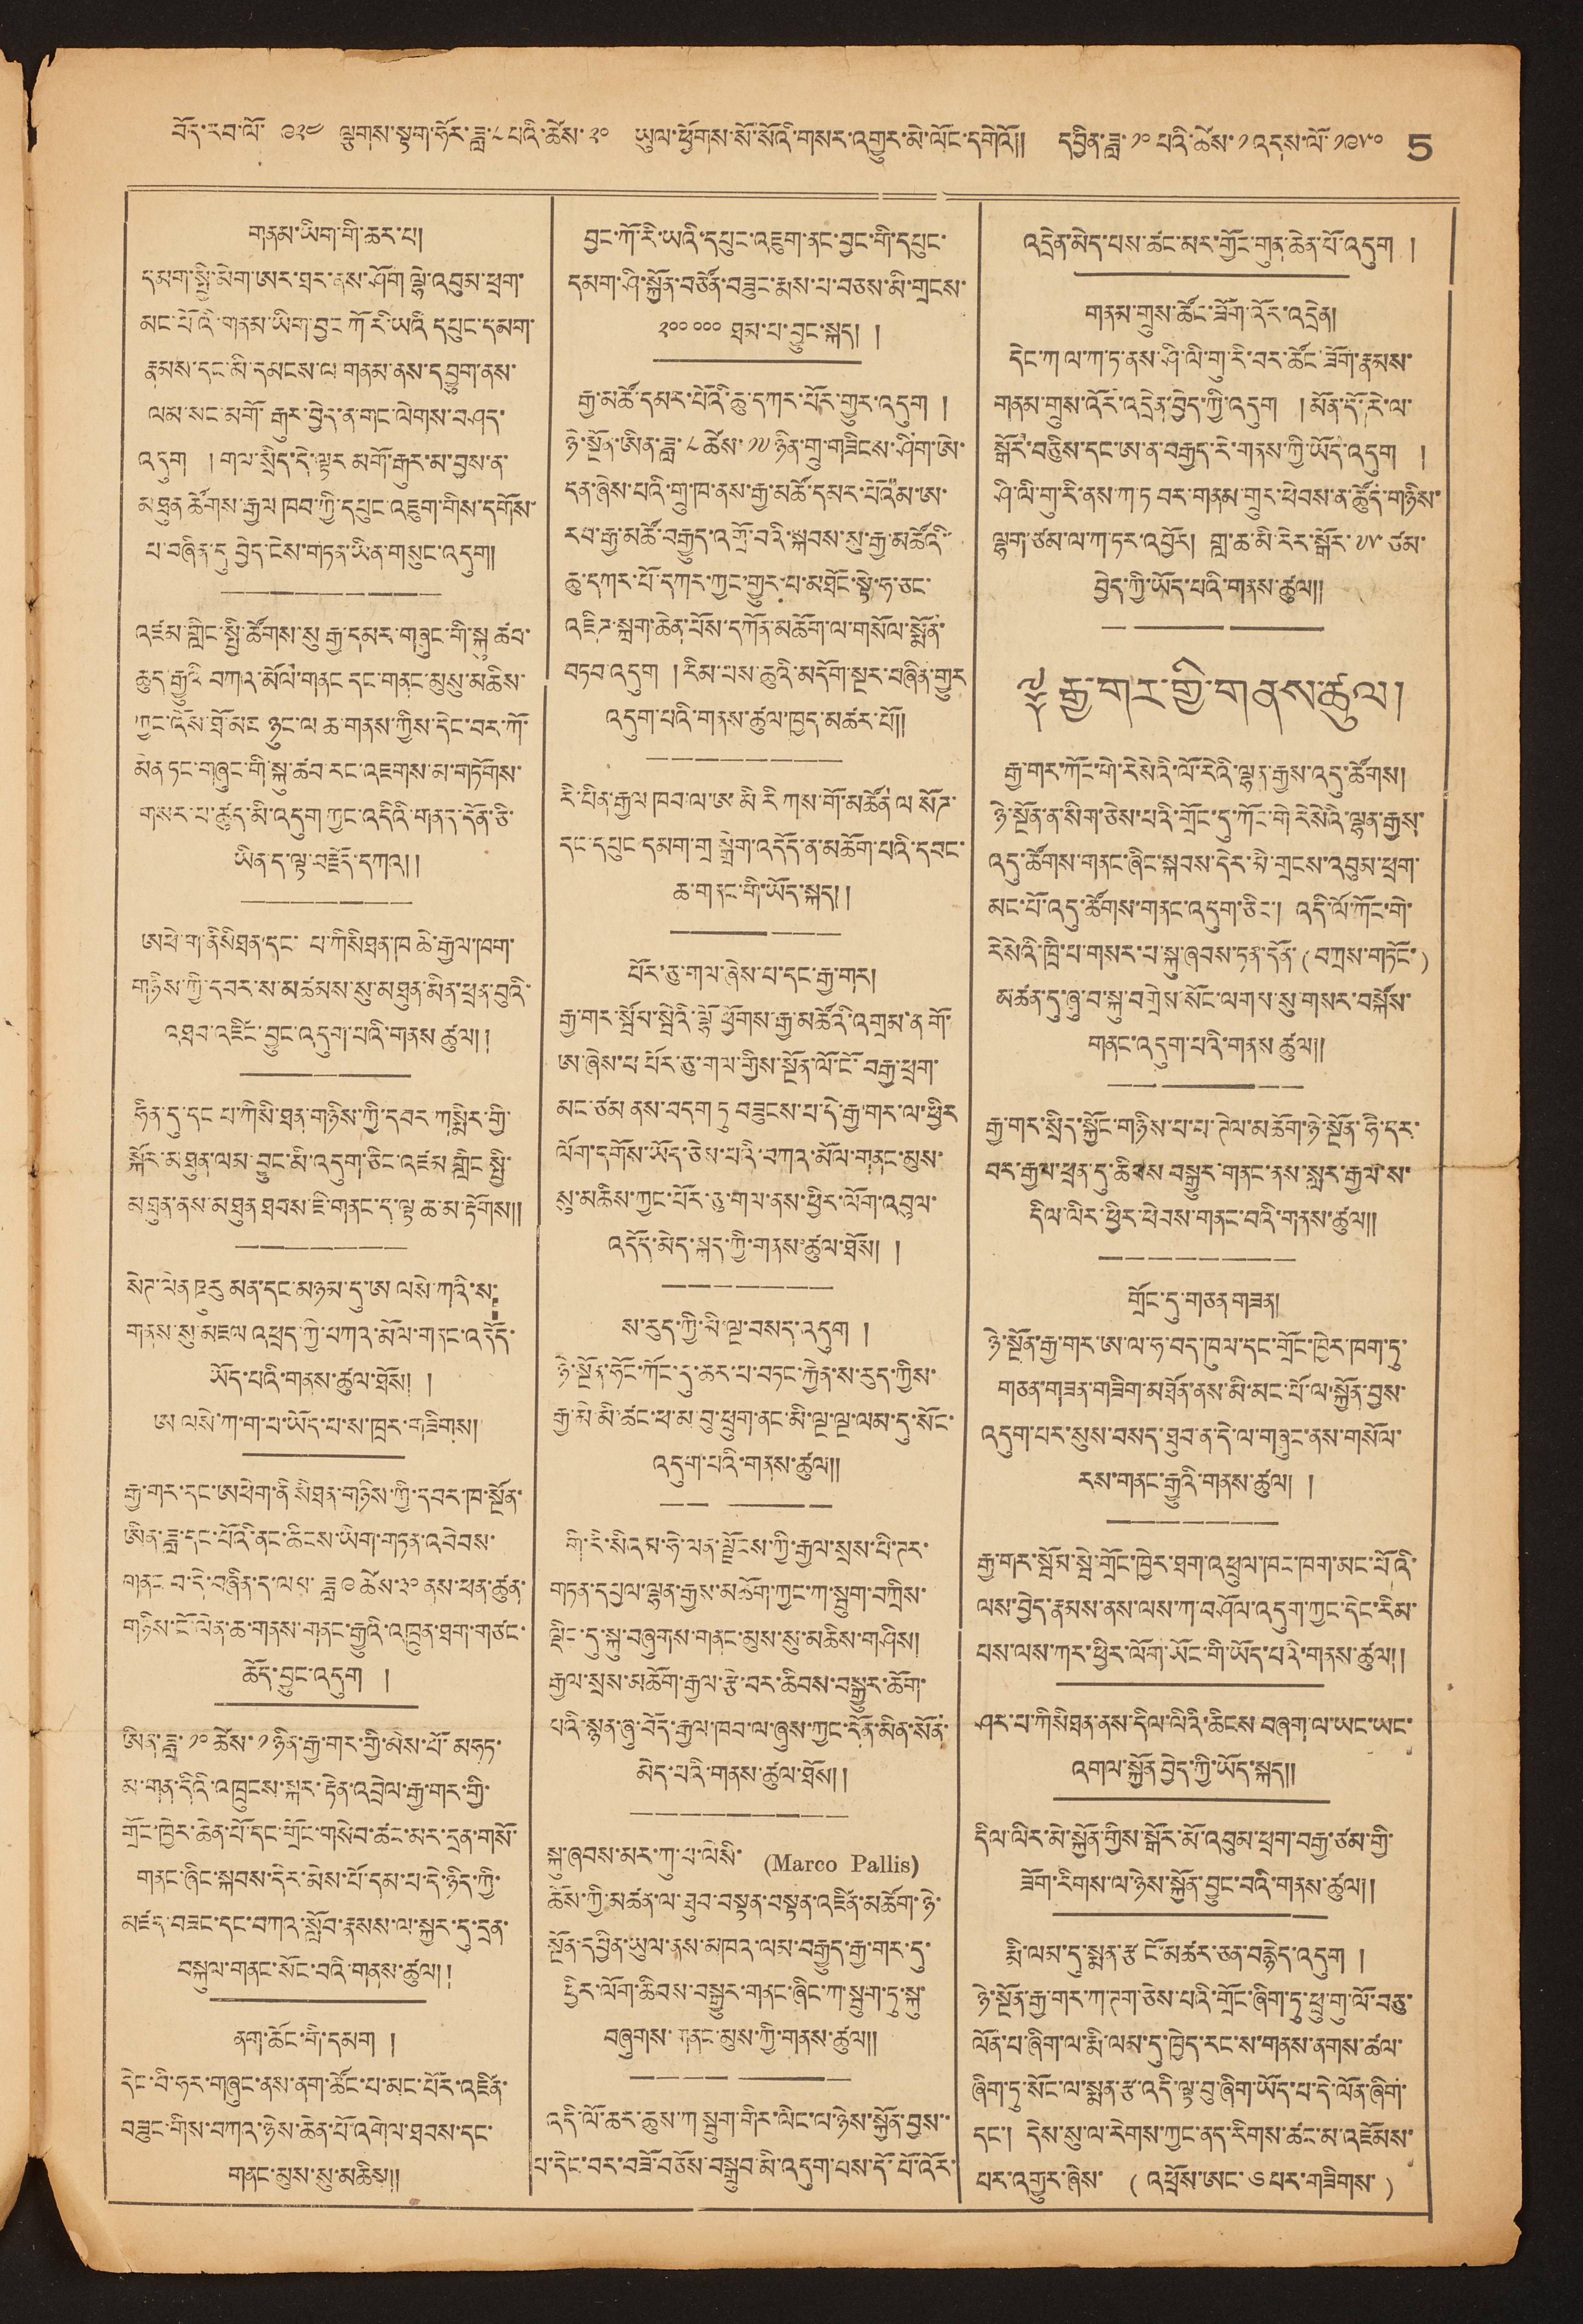བོད་རབ་ལོ་ ༩༢༤ ལྕགས་སྟག་ཧོར་ཟླ་ ༨ པའི་ཚེས་ ༢༠ ཡུལ་ཕྱོགས་སོ་སོའི་གསར་འགྱུར་མེ་ལོང་དགེའོ།། དབྱིན་ཟླ་ ༡༠ ཚེས་ ༡ འདས་ལོ་ ༡༩༥༠ 5
གནམ་ཡིག་གི་ཆར་པ།
དམག་སྤྱི་མེག་ཨར་ཐར་ནས་ཤོག་ལྷེ་འབུམ་ཕྲག་
མང་པོའི་གནམ་ཡིག་བྱང ཀོ རི་ཡའི དཔུང་དམག་
རྣམས་དང་མི་དམངས་ལ གནམ་ནས་དབྱུག་ནས་
ལམ་སང་མགོ་རྒུར་བྱེད་ན་གང་ལེགས་བཤད་
འདུག །གལ་སྲིད་གེ་སྟར མགོ་རྒུར་མ་བྱས་ན་
མཐུན ཚོགས་རྒྱལ ཁབ་ཀྱི་དཔུང་འཇུག་གིས་དགོས་
པ་བཞིན་དུ་བྱེད་ངེས་གཏན་ཡིན་གསུང་འདུག།
འཛམ་གླིང་སྤྱི་ཚོགས་སུ རྒྱ་དམར་གཞུང་གི་སྐུ ཚབ་
ཆུད རྒྱུའི བཀའ་མོལ་གནང དང་གནང་མུསུ་མཆིས་
ཀྱང་འོས་ཐོ་མང ཉུང་ལ ཆ་གནས་ཀྱིས་དེང་བར་ཀོ་
མེན་ཏང་གཞུང་གི་སྐུ་ཚབ་རང་འཇགས་མ་གཏོགས་
གསར་པ་ཚུད་མི་འདུག ཀྱང་འདིའི་གནས་དོན་ཅི་
ཡིན་ད་ལྟ་བརྗོད་བཀའ།།
ཨཕེ་ག་ནིསིཐན་དང་ པ་ཀིསིཐན་ཁ ཆེ་རྒྱལ་ཁག་
གཉིས་ཀྱི་དབར་ས་མཚམས་སུ་མཐུན་མིན་ཕྲན་བུའི་
འཐབ་འཛིང་བྱུང་འདུག་པའི་གནས་ཚུལ།།
ཧིན་དུ་དང པ་ཀིསི་ཐན་གཉིས་ཀྱི་དབར་ཀསྨིར་གྱི་
སྐོར་མཐུན་ལམ་བྱུང་མི་འདུག་ཅིང་འཛམ་གླིང སྤྱི་
མཐུན་ནས་མཐུན ཐབས་ཇི་གནང་ད་ལྟ ཆ་མ་རྟོགས།།
སེཊ་ལེན ཋུརུ མན་དང་མཉམ་དུ་ཨ ལསེ་ཀའི་ས་
གནས་སུ་མཇལ འཕྲད་ཀྱི་བཀའ་མོལ་གནང་འདོད་
ཡོད་པའི་གནས་ཚུལ་ཐོས། །
ཨ ལསེ་ཀ་ག་བ་ཡོད་པ་ས་ཁྲར་གཟིགས།
རྒྱ་གར་དང་ཨཕེག་ནི སིཐན་གཉིས་གྱི་དབར་ཁ་སྔོན་
ཨིན་ཟླ དང་པོའི་ནང་ཆིངས་ཡིག་གཏན་འབེབས་
གནང བ་དེ་བཞིན་ད་ལམ་ཟླ་ ༩ ཚེས་ ༣༠ ནས་ཕན་ཚུན་
གཉིས་ངོ་ལེན་ཆ་གནས་གནང་རྒྱུའི་འཁྲུན་ཐག་གཙང་
ཆོད་བྱུང་འདུག །
ཨིན་ཟླ་ ༡༠ ཚེས་ ༡ ཉིན་རྒྱ་གར་མེས་པོ་མཧཏ་
མ་གན་དིའི་འཁྲུངས་སྐར་རྟེན་འབྲེལ་རྒྱ་གར་གྱི་
གྲོང་ཁྱེར་ཆེན་པོ་དང་དྲོང་གསེབ་ཚང་མར་དྲན་གསོ་
གནང་ཞིང་སྐབས་དེར་མེས་པོ་དམ་པ་དེ་ཉིད་ཀྱི་
མཛད་བཟང་དང་བཀའ་སློབ་རྣམས་ལ་སྐྱར་དུ་དྲན་
བསྐུལ་གནང་སོང་བའི་གནས་ཚུལ།།
ནང་ཆོང་གི་དམག །
དེང་བི་ཧར་གཞུང་ནས་ནག་ཚོང་པ་མང་པོར་འཛིན་
བཟུང་གིས་བཀའ་ཉེས་ཆེན་པོ་འགེལ་ཐབས་དང་
གནང་མུས་སུ་མཆིས།།
བྱང་ཀོ་རི་ཡའི་དཔུང་འཇུག་ནང་བྱང་གི་དཔུང་
དམག་ཤི་སྐྱོན་བཙོན་བཟུང་རྨས་པ་བཅས་མི་གྲངས་
༢༠༠ ༠༠༠ ཐམ་པ་བྱུང་སྐད། །
རྒྱ་མཚོ་དམར་པོའི་ཆུ་དཀར་པོར་གྱུར་འདུག །
ཉེ་སྔོན་ཨིན་ཟླ་ ༨ ཚེས་ ༡༧ ཉིན་གྲུ་གཟིངས་ཤིག་ཨེ་
དན་ཞེས་པའི་གྲུ་ཁ་ནས་རྒྱ་མཚོ་དམར་པོའམ་ཨ་
རབ་རྒྱ་མཚོ་བརྒྱུད་འགྲོ་བའི་སྐབས་སུ་རྒྱ་མཚོའི་
ཆུ་དཀར་པོ་དཀར་ཀྱང་གྱུར་པ་མཐོང་སྟེ་ཧ་ཅང་
འཇིཊ་སྐྲག་ཆེན་པོས་དཀོན་མཆོག་ལ་གསོལ་སྨོན་
བཏབ་འདུག །རིམ་པས་ཆུའི་མདོག་སྔར་བཞིན་གྱུར
འདུག་པའི་གནས་ཚུལ་ཁྱད་མཚར་པོ།།
རི་པིན་རྒྱལ ཁབ་ལ་ཨ མི་རི ཀས་གོ་མཚོན ལ སོཊ་
དང་དཔུང དམག་གྲ སྒྲིག་འདོད་ན་མཆོག་པའི་དབང་
ཆ་གནང་གི་ཡོད་སྐད།།
པོར་ཅུ་གལ་ཞེས་པ་དང་རྒྱ་གར།
རྒྱ་གར་སྦོམ་སྦེའི་ལྷོ ཕྱོགས་རྒྱ་མཚོའི་འགྲམ་ན གོ་
ཨ་ ཞེས་པ པོར་ཅུ་གལ་གྱིས་སྔོན་ལོ་ངོ་བརྒྱ་ཕྲག་
མང་ཙམ་ནས་བདག་ཏུ བཟུངས་པ་དེ་རྒྱ་གར་ལ་ཕྱིར་
ལོག་དགོས་ཡོད་ཅེས་པའི་བཀའ་མོལ་གནང་མུས་
སུ་མཆིས་ཀྱང་པོར་ཅུ་གལ་ནས་ཕྱིར་ལོག་འབུལ་
འདོད་མེད་སྐད་ཀྱི་གནས་ཚུལ་ཐོས། །
ས་རུད་ཀྱི་མི་ལྔ་བསད་འདུག །
ཉེ་སྔོན་ཧོང་ཀོང་དུ་ཆར་པ་བཏང་རྐྱེན་ས་རུད་ཀྱིས་
རྒྱ་མི་མི་ཚང་ཕ་མ་བུ་ཕྲུག་ནང་མི་ལྔ་ལྔ་ལམ་དུ་སོང་
འདུག་པའི་གནས་ཚུལ།།
གི་རི་སིའམ་ཧེ་ལན་སྗོངས་ཀྱི་རྒྱལ་སྲས་པི་ཊར་
གཏན་དཔྱད་ལྷན་རྒྱས་མཆོག་ཀྱང་ཀ་སྦུག་བཀྲིས་
ལྡིང་དུ་སྐུ་བཞུགས་གནང་མུས་སུ་མཆིས་གཤིས།
རྒྱལ་སྲས་མཆོག་རྒྱལ་རྩེ་བར་ཆིབས་བསྒྱུར་ཆོག་
པའི་སྙམ་ཞུ་བོད་རྒྱལ་ཁབ་ལ་ཞུས་ཀྱང་དོན་མིན་སོན་
མེད་པའི་གནས་ཚུལ་ཐོས།།
སྐུ་ཞབས་མར་ཀུ་པ་ལིསི་ (Marco Pallis)
ཆོས་ཀྱི་མཚན་ལ་ཐུབ་བསྟན་བསྟན་འཛིན་མཆོག་ཉེ་
སྔོན་དབྱིན་ཡུལ་ནས་མཁའ་ལམ་བརྒྱུད་རྒྱ་གར་དུ་
ཕྱིར་ལོག་ཆིབས་བསྒྱུར་གནང་ཞིང་ཀ་སྤུག་ཏུ་སྐུ་
བཞུགས་གནང་མུས་ཀྱི་གནས་ཚུལ།།
འདི་ལོ་ཆར་ཆུས་ཀ སྦུག་གིར་ལིང་ལ་ཉེས་སྐྱོན་བྱས་་
པ་དེང་བར་བཟོ་བཅོས་བསྒྲུབ་མི་འདུག་པས་དོ་པོ་འོར་
འདྲེན་མེད་པས་ཚང་མར་གྱོང་གུན་ཆེན་པོ་འདུག །
གནམ་གྲུས་ཚོང་ཟོག་འོར་འདྲེན།
དེང་ཀལ་ཀ་ཏ་ནས་ཤི་ལི་གུ་རི་བར་ཚོང་ཟོག་རྣམས་
གནམ་གྲུས་འོང་འདྲེན་བྱེད་ཀྱི་འདུག །མོན་དོ་རེ་ལ་
སྒོར་བཅིུས་དང་ཨ་ན་བརྒྱད་རེ་གནམ་ཀྱི་ཡོད་འདུག །
ཤི་ལི་གུ་རི་ནས་ཀ་ཏ་བར་གནམ་གྲུར་ཕེབས་ན་ཚུད་གཉིས་
ལྷག་ཙམ་ལ་ཀ་ཏར་འབྱོར། གླ་ཆ་མི་རེར་སྒོར་ ༧༥ ཙམ་
བྱེད་ཀྱི་ཡོད་པའི་གནས་ཚུལ་།།
༈ རྒྱ་གར་གྱི་གནས་ཚུལ།
རྒྱ་གར་ཀོང་གེ་རེསེའི་ལོ་རེའི་ལྷག་རྒྱས་འདུ་ཚོགས།
ཉེ་སྔོན་ན་སིག་ཅེས་པའི་གྲོང་དུ་ཀོང་གེ་རེསེའི་ལྷན་རྒྱས་
འདུ་ཚོགས་གནང་ཞིང་སྐབས་དེར་མི་གྲངས་འབུམ་ཕྲག་
མང་པོ་འདུ་ཚོགས་གནང་འདུག་ཅིང་། འདི་ལོ་ཀོང་གེ་
རེསེའི་ཁྲི་པ་གསར་པ་སྐུ་ཞབས་ཏན་དོན་ (བཀྲས་གཏོང་)
མཚན་དུ་ཞུ་བ་སྐུ་བགྲེས་སོང་ལགས་སུ་གསར་བསྐོས་
གནང་འདུག་པའི་གནས་ཚུལ།།
རྒྱ་གར་སྲིད་སྐྱོང་གཉིས་པ་པ་ཊེལ་མཆོག་ཉེ་སྔོན་ཧཻ་དར་
བར་རྒྱན་ཕྲན་དུ་ཆིབས་བསྒྱུར་གནང་ནས་སླར་རྒྱལ་ས་
དིལ་ལིར་ཕྱིར་ཕེབས་གནང་བའི་གནས་ཚུལ།།
གྲོང་དུ་གཅན་གཟན།
ཉེ་སྔོན་རྒྱ་གར་ཨ་ལ་ཧ་བད་ཁུལ་དང་གྲོང་ཁྱེར་ཁག་ཏུ་
གཅན་གཟན་གཟིག་མཐོན་ནས་མི་མང་པོ་ལ་སྐྱོན་བྱས་
འདུག་པར་སུས་བསད་ཐུབ་ན་དེ་ལ་གཞུང་ན་གསོལ་
རས་གནང་རྒྱུའི་གནས་ཚུལ། །
རྒྱ་གར་སྦོམ་སྦེ་གྲོང་ཁྱེར་ཐག་འཕྲུལ་ཁང་ཁག་མང་པོའི་
ལས་བྱེད་རྣམས་ནས་ལས་ཀ་བཤོལ་འདུག་ཀྱང་དེང་རིམ་
པས་ལས་ཀར་ཕྱིར་ལོག་མོང་གི་ཡོད་པའི་གནས་ཚུལ།།
ཤར་པ་ཀིསིཐན་ནས་དིལ་ལིའི་ཆིངས་བཞག་ལ་ཡང་ཡང་
འགལ་སྐྱོན་བྱེད་ཀྱི་ཡོད་སྐད།།
དིལ་ལིར་མེ་སྐྱོན་གྱིས་སྒོར་མོ་འབུམ་ཕྲག་བརྒྱ་ཙམ་གྱི་
ཟོག་རིགས་ལ་ཉེས་སྐྱོན་བྱུང་བའི་གནས་ཚུལ།།
རྨི་ལམ་དུ་སྨན་རྩ ངོ་མཚར་ཅན་བརྙེད་འདུག །
ཉེ་སྔོན་རྒྱ་གར་ཀ་ཊག་ཅེས་པའི་གྲོང་ཞིག་ཏུ་ཕྲུ་གུ་ལོ་བཅུ་
ལོན་པ་ཞིག་ལ་རྨི་ལམ་དུ་ཁྱེར་རང་ས་གནས་ནགས་ཚལ་
ཞིག་ཏུ་སོང་ལ་སྨན་རྩ་འདི་ལྟ་བུ་ཞིག་ཡོད་པ་དེ་ལོན་ཞིག་
དང་། དེས་སུ་ལ་རེགས་ཀྱང་ནད་རིགས་ཚང་མ་འཛོམས་
པར་འགྱུར་ཞེས་ (འཕྲོས་ཨང་ ༦ པར་གཟིགས་)
